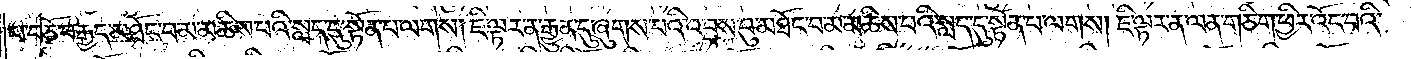པ་བཅོ་བརྒྱད་མཐོང་བ་མ་མཆིས་པའི་སླད་དུ་སྟོན་པ་ལགས། ཇི་ལྟར་ན་རྒྱུན་དུ་ཞུགས་པའི་འབྲས་བུ་མཐོང་བ་མ་མཆིས་པའི་སླད་དུ་སྟོན་པ་ལགས། ཇི་ལྟར་ན་ལན་གཅིག་ཕྱིར་འོང་བའི་
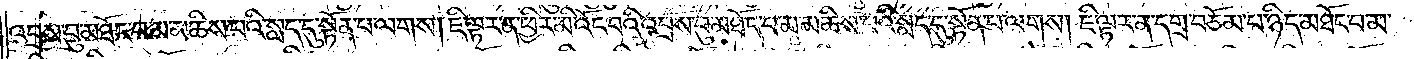འབྲས་བུ་མཐོང་བ་མ་མཆིས་པའི་སླད་དུ་སྟོན་པ་ལགས། ཇི་ལྟར་ན་ཕྱིར་མི་འོང་བའི་འབྲས་བུ་མཐོང་བ་མ་མཆིས་པའི་སླད་དུ་སྟོན་པ་ལགས། ཇི་ལྟར་ན་དགྲ་བཅོམ་པ་ཉིད་མཐོང་བ་མ་
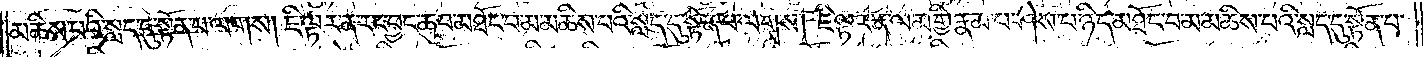མཆིས་པའི་སླད་དུ་སྟོན་པ་ལགས། ཇི་ལྟར་ན་རང་བྱང་ཆུབ་མཐོང་བ་མ་མཆིས་པའི་སླད་དུ་སྟོན་པ་ལགས། ཇི་ལྟར་ན་ལམ་གྱི་རྣམ་པ་ཤེས་པ་ཉིད་མཐོང་བ་མ་མཆིས་པའི་སླད་དུ་སྟོན་པ་
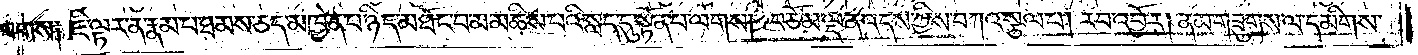ལགས། ཇི་ལྟར་ན་རྣམ་པ་ཐམས་ཅད་མཁྱེན་པ་ཉིད་མཐོང་བ་མ་མཆིས་པའི་སླད་དུ་སྟོན་པ་ལགས། བཅོམ་ལྡན་འདས་ཀྱིས་བཀའ་སྩལ་པ། རབ་འབྱོར། ནམ་གཟུགས་ལ་དམིགས་
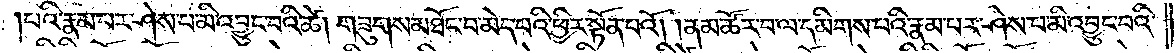པའི་རྣམ་པར་ཤེས་པ་མི་འབྱུང་བའི་ཚེ། གཟུགས་མཐོང་བ་མེད་པའི་ཕྱིར་སྟོན་པའོ། །ནམ་ཚོར་བ་ལ་དམིགས་པའི་རྣམ་པར་ཤེས་པ་མི་འབྱུང་བའི་
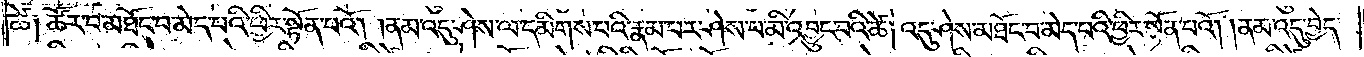ཚེ༑ ཚོར་བ་མཐོང་བ་མེད་པའི་ཕྱིར་སྟོན་པའོ། །ནམ་འདུ་ཤེས་ལ་དམིགས་པའི་རྣམ་པར་ཤེས་པ་མི་འབྱུང་བའི་ཚེ། འདུ་ཤེས་མཐོང་བ་མེད་པའི་ཕྱིར་སྟོན་པའོ། །ནམ་འདུ་བྱེད་
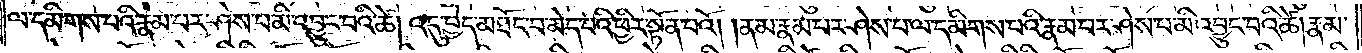ལ་དམིགས་པའི་རྣམ་པར་ཤེས་པ་མི་འབྱུང་བའི་ཚེ། འདུ་བྱེད་མཐོང་བ་མེད་པའི་ཕྱིར་སྟོན་པའོ། །ནམ་རྣམ་པར་ཤེས་པ་ལ་དམིགས་པའི་རྣམ་པར་ཤེས་པ་མི་འབྱུང་བའི་ཚེ། རྣམ་
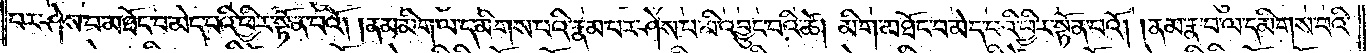པར་ཤེས་པ་མཐོང་བ་མེད་པའི་ཕྱིར་སྟོན་པའོ། །ནམ་མིག་ལ་དམིགས་པའི་རྣམ་པར་ཤེས་པ་མི་འབྱུང་བའི་ཚེ། མིག་མཐོང་བ་མེད་པའི་ཕྱིར་སྟོན་པའོ། །ནམ་རྣ་བ་ལ་དམིགས་པའི་
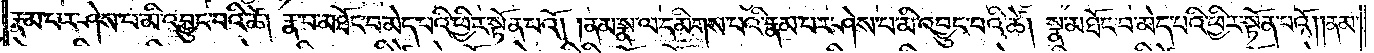རྣམ་པར་ཤེས་པ་མི་འབྱུང་བའི་ཚེ། རྣ་བ་མཐོང་བ་མེད་པའི་ཕྱིར་སྟོན་པའོ། །ནམ་སྣ་ལ་དམིགས་པའི་རྣམ་པར་ཤེས་པ་མི་འབྱུང་བའི་ཚེ། སྣ་མཐོང་བ་མེད་པའི་ཕྱིར་སྟོན་པའོ། །ནམ་
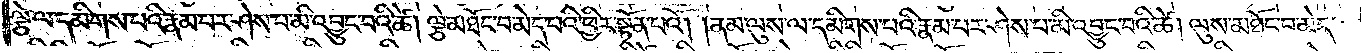ལྕེ་ལ་དམིགས་པའི་རྣམ་པར་ཤེས་པ་མི་འབྱུང་བའི་ཚེ། ལྕེ་མཐོང་བ་མེད་པའི་ཕྱིར་སྟོན་པའོ། །ནམ་ལུས་ལ་དམིགས་པའི་རྣམ་པར་ཤེས་པ་མི་འབྱུང་བའི་ཚེ། ལུས་མཐོང་བ་མེད་
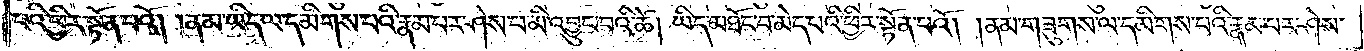པའི་ཕྱིར་སྟོན་པའོ། །ནམ་ཡིད་ལ་དམིགས་པའི་རྣམ་པར་ཤེས་པ་མི་འབྱུང་བའི་ཚེ། ཡིད་ལ་མཐོང་བ་མེད་པའི་ཕྱིར་སྟོན་པའོ། །ནམ་གཟུགས་ལ་དམིགས་པའི་རྣམ་པར་ཤེས་
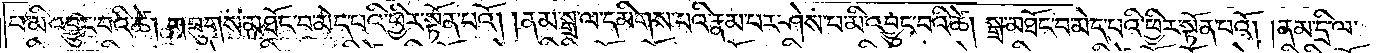པ་མི་འབྱུང་བའི་ཚེ། གཟུགས་མཐོང་བ་མེད་པའི་ཕྱིར་སྟོན་པའོ། །ནམ་སྒྲ་ལ་དམིགས་པའི་རྣམ་པར་ཤེས་པ་མི་འབྱུང་བའི་ཚེ། སྒྲ་མཐོང་བ་མེད་པའི་ཕྱིར་སྟོན་པའོ། །ནམ་དྲི་ལ་
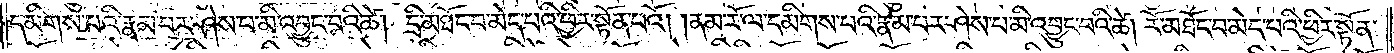དམིགས་པའི་རྣམ་པར་ཤེས་པ་མི་འབྱུང་བའི་ཚེ། དྲི་མཐོང་བ་མེད་པའི་ཕྱིར་སྟོན་པའོ། །ནམ་རོ་ལ་དམིགས་པའི་རྣམ་པར་ཤེས་པ་མི་འབྱུང་བའི་ཚེ། རོ་མཐོང་བ་མེད་པའི་ཕྱིར་སྟོན་
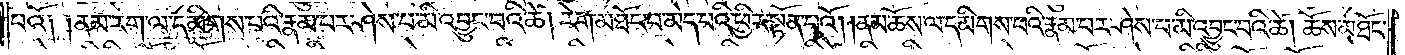པའོ༑ ༑ནམ་རེག་ལ་དམིགས་པའི་རྣམ་པར་ཤེས་པ་མི་འབྱུང་བའི་ཚེ། རེག་མཐོང་བ་མེད་པའི་ཕྱིར་སྟོན་པའོ། །ནམ་ཆོས་ལ་དམིགས་པའི་རྣམ་པར་ཤེས་པ་མི་འབྱུང་བའི་ཚེ། ཆོས་མཐོང་
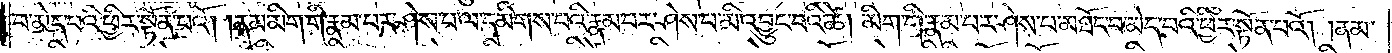བ་མེད་པའི་ཕྱིར་སྟོན་པའོ། །ནམ་མིག་གི་རྣམ་པར་ཤེས་པ་ལ་དམིགས་པའི་རྣམ་པར་ཤེས་པ་མི་འབྱུང་བའི་ཚེ། མིག་གི་རྣམ་པར་ཤེས་པ་མཐོང་བ་མེད་པའི་ཕྱིར་སྟོན་པའོ། །ནམ་
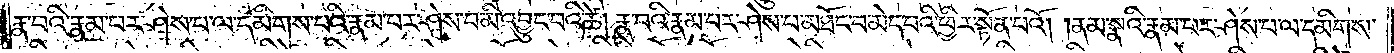རྣ་བའི་རྣམ་པར་ཤེས་པ་ལ་དམིགས་པའི་རྣམ་པར་ཤེས་པ་མི་འབྱུང་བའི་ཚེ། རྣ་བའི་རྣམ་པར་ཤེས་པ་མཐོང་བ་མེད་པའི་ཕྱིར་སྟོན་པའོ། །ནམ་སྣའི་རྣམ་པར་ཤེས་པ་ལ་དམིགས་
